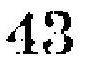43
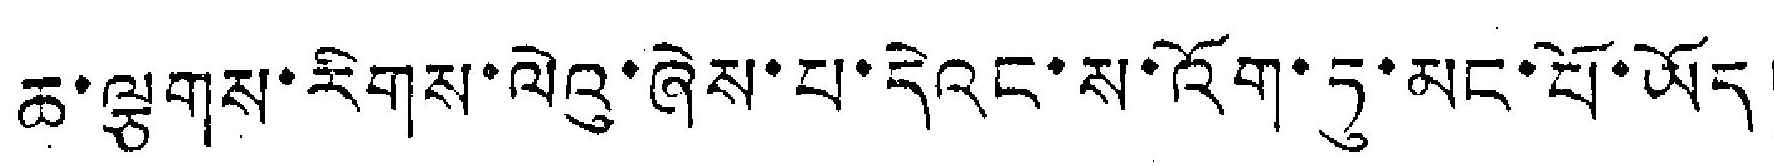ཆ་ལྕགས་རིགས་ལེའུ་ཞེས་པ་དེའང་ས་འོག་ཏུ་མང་པོ་ཡོད།
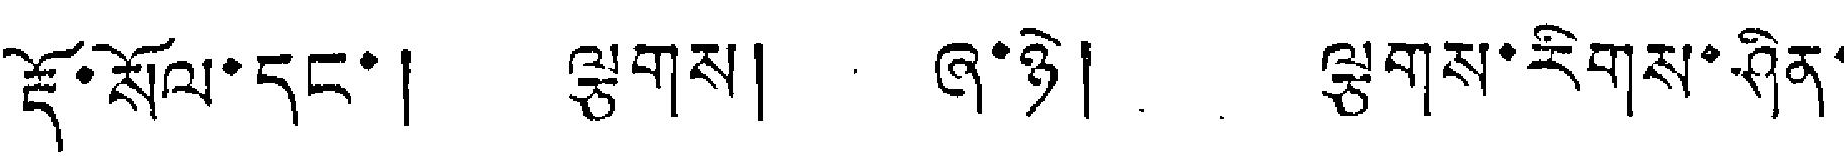རྡོ་སོལ་དང་། ལྕགས། ཞ་ཉེ། ལྕགས་རིགས་ཤིན་
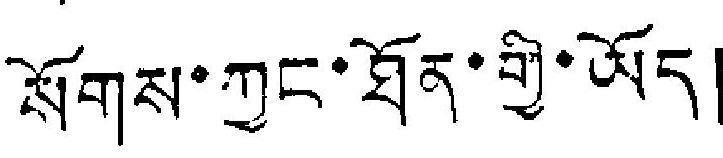སོགས་ཀྱང་ཐོན་གྱི་ཡོད།
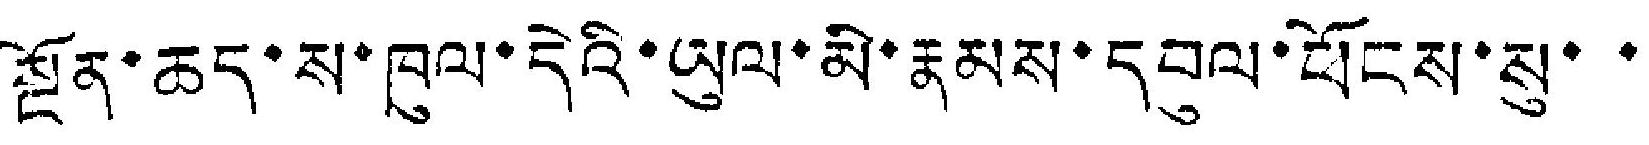སྔོན་ཆད་ས་ཁུལ་དེའི་ཡུལ་མི་རྣམས་དབུལ་ཕོངས་སུ་་་
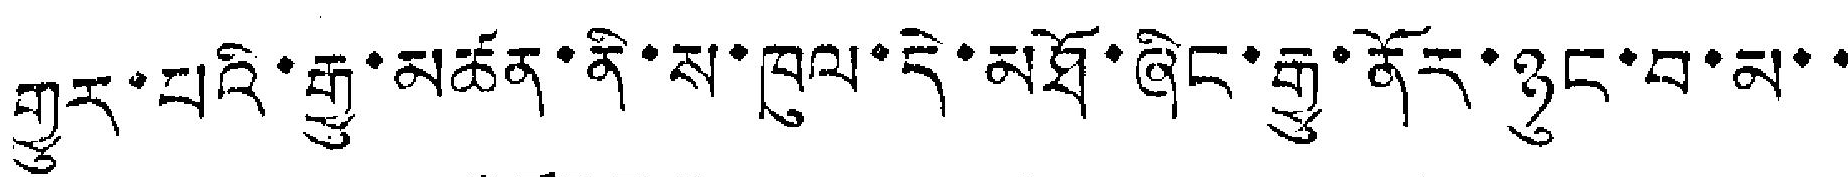གྱུར་པའི་རྒྱུ་མཚན་ནི་ས་ཁུལ་དེ་མཐོ་ཞིང་རྒྱུ་ནོར་ཉུང་བ་མ་་
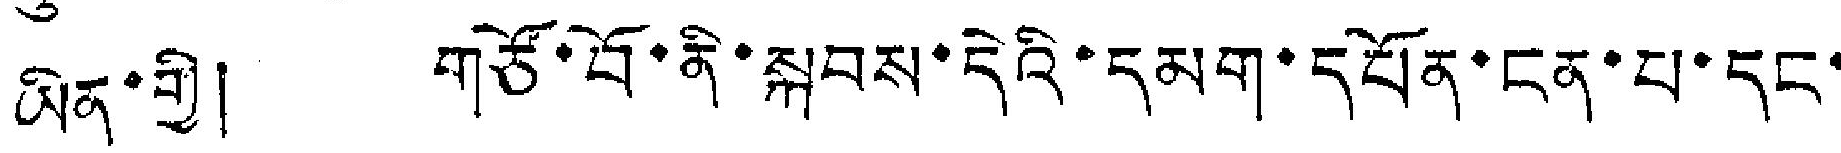ཡིན་གྱི། གཙོ་བོ་ནི་སྐབས་དེའི་དམག་དཔོན་ངན་པ་དང་
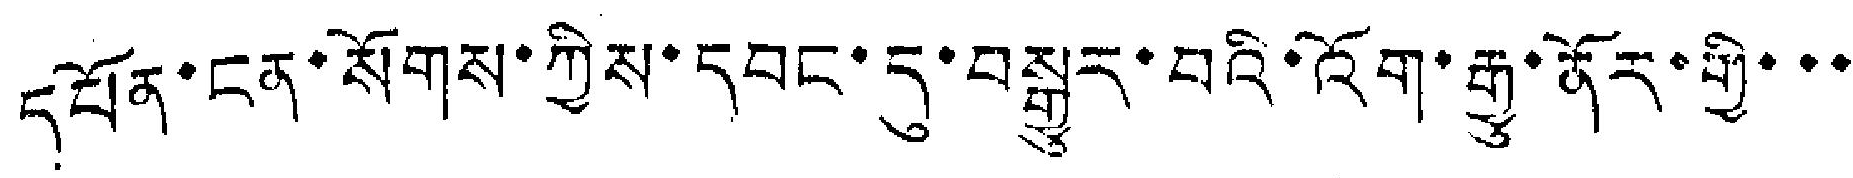དཔོན་ངན་སོགས་ཀྱིས་དབང་དུ་བསྒྱུར་བའི་འོག་རྒྱུ་ནོར་གྱི་་་
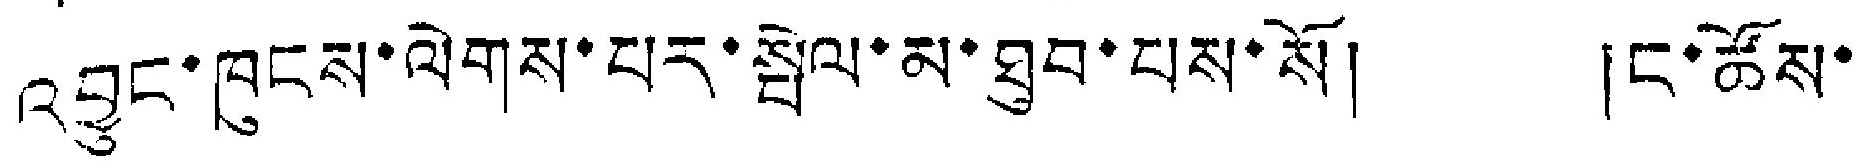འབྱུང་ཁུངས་ལེགས་པར་སྤེལ་མ་ཐུབ་པས་སོ། །ང་ཚོས་
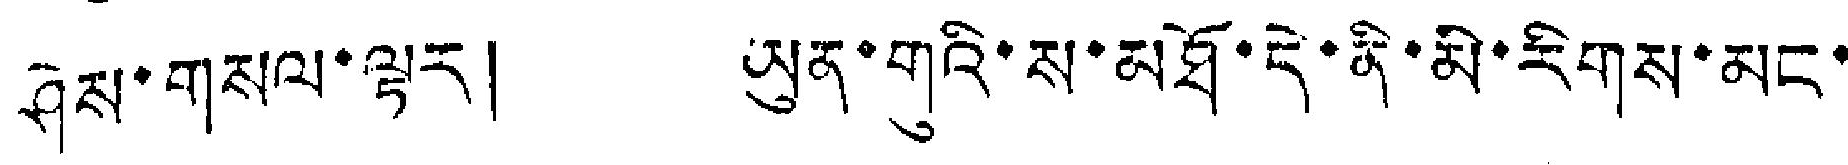ཤེས་གསལ་ལྟར། ཡུན་གུའི་ས་མཐོ་དེ་ནི་མི་རིགས་མང་
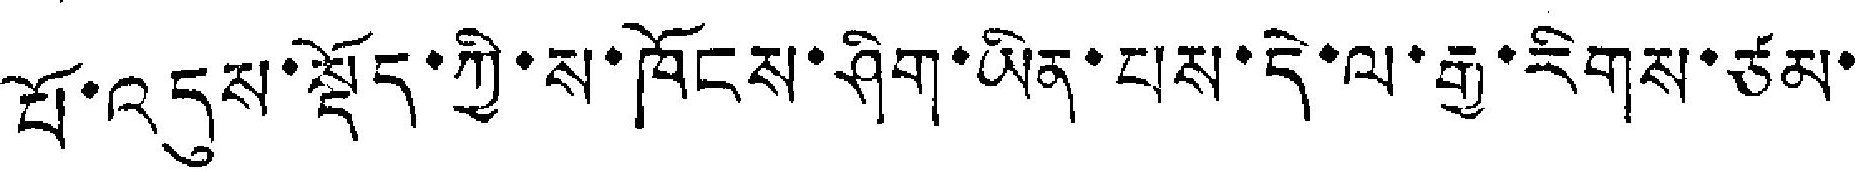པོ་འདུས་སྡོད་ཀྱི་ས་ཁོངས་ཤིག་ཡིན་པས་དེ་ལ་རྒྱ་རིགས་ཙམ་
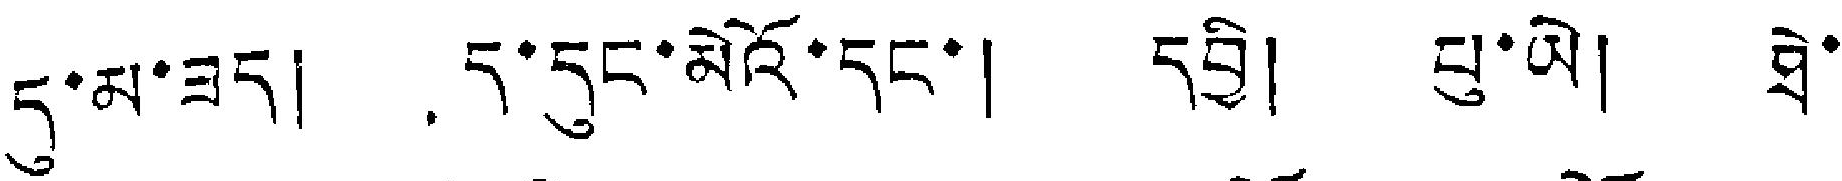དུ་མ་ཟད། ད་དུང་མེའོ་དང་། དབྱི། པུ་ཡེ། ཐེ་
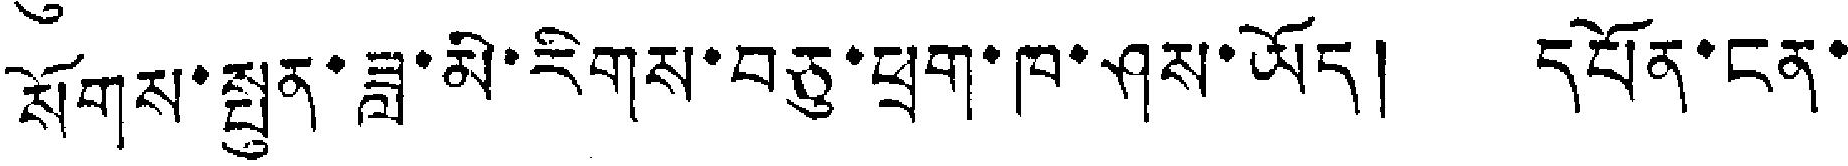སོགས་སྤུན་ཟླ་མི་རིགས་བཅུ་ཕྲག་ཁ་ཤས་ཡོད། དཔོན་ངན་
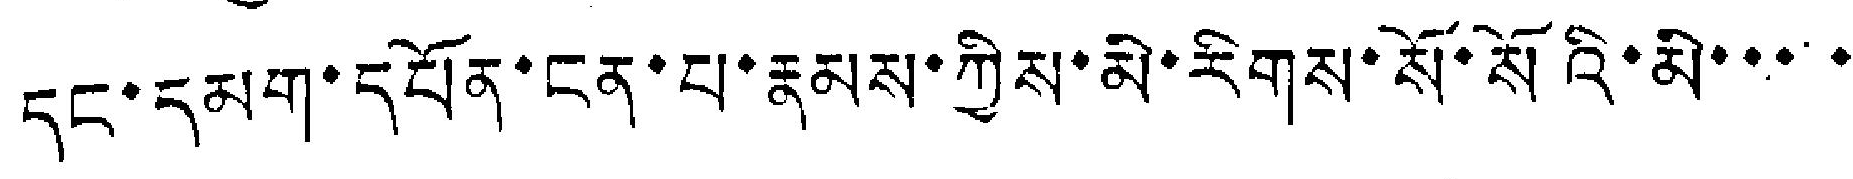དང་དམག་དཔོན་ངན་པ་རྣམས་ཀྱིས་མི་རིགས་སོ་སོའི་མི་་་་་
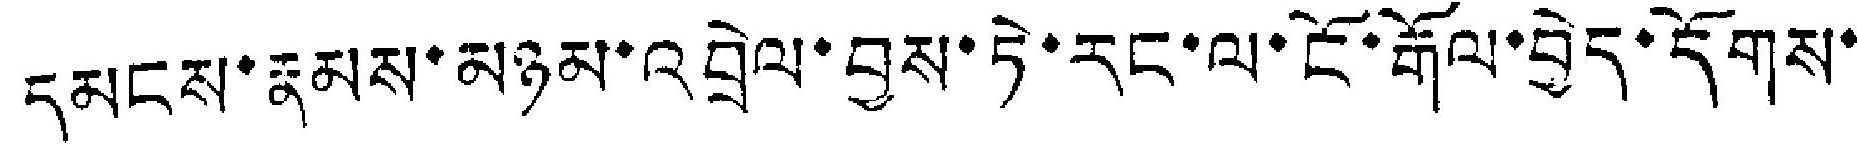དམངས་རྣམས་མཉམ་འབྲེལ་བྱས་ཏེ་རང་ལ་ངོ་རྒོལ་བྱེད་དོགས་
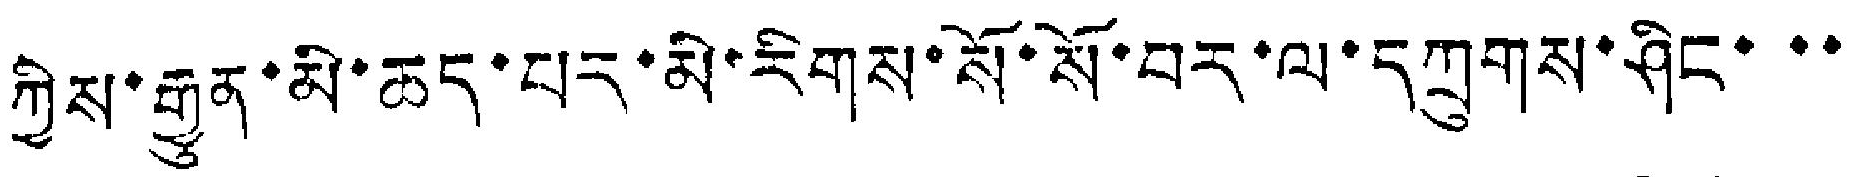ཀྱིས་རྒྱུན་མི་ཆད་པར་མི་རིགས་སོ་སོ་བར་ལ་དཀྲུགས་ཤིང་་་
